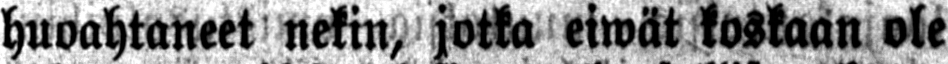huoahtaneet nekin, jotka eiwät koskaan ole
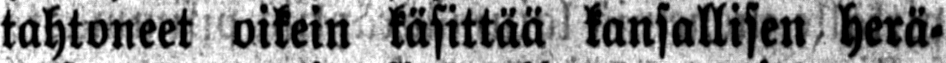tahtoneet oikein käsittää kansallisen herä-
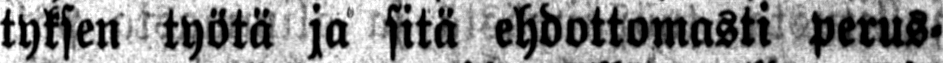tyksen työtä ja sitä ehdottomasti perus-
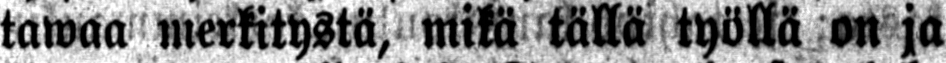tawaa merkitystä, mikä tällä työllä on ja
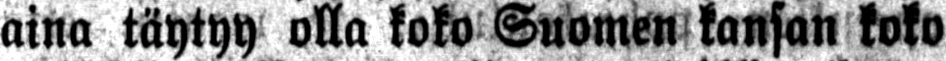aina täytyy olla koko Suomen kansan koko
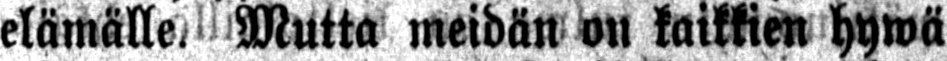elämälle. Mutta meidän on kaikkien hywä
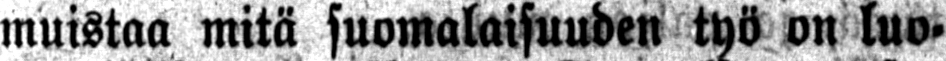muistaa mitä suomalaisuuden työ on luo-
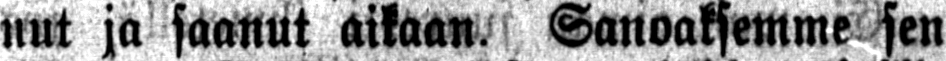nut ja saanut aikaan. Sanoaksemme sen
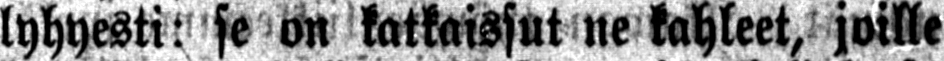lyhyesti: se on katkaissut ne kahleet, joille
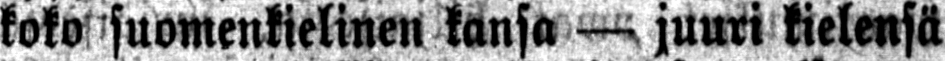koko suomenkielinen kansa — juuri kielensä
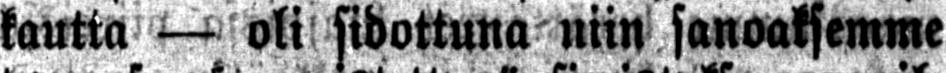kautta — oli sidottuna niin sanoaksemme
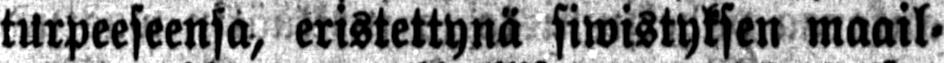turpeeseensa, eristettynä siwistyksen maail-
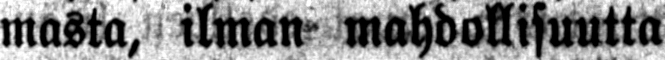masta, ilman mahdollisuutta päästä sen
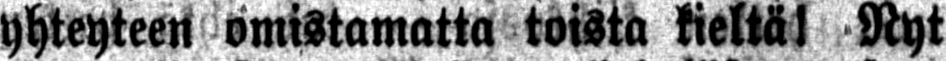yhteyteen omistamatta toista kieltäl Nyt
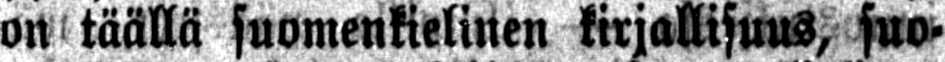on täällä suomenkielinen kirjallisuus, suo-
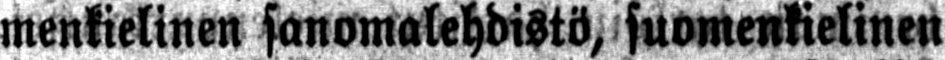menkielinen sanomalehdistö, suomenkielinen
